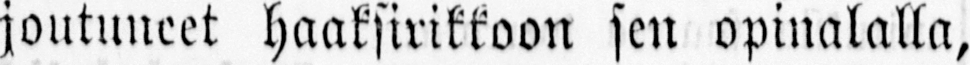joutuneet haaksirikkoon sen opinalalla,
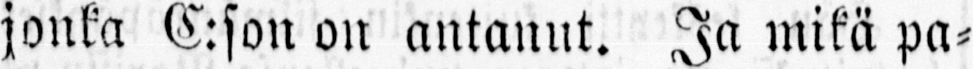jonka C:son on antanut. Ja mikä pa-
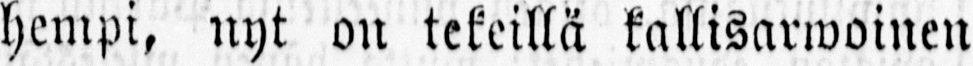hempi, nyt on tekeillä kallisarwoinen
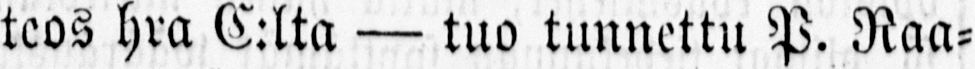teos hra C:lta — tuo tunnettu P. Raa-
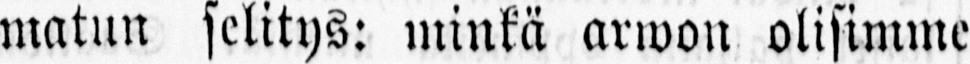matun selitys: minkä arwon olisimme
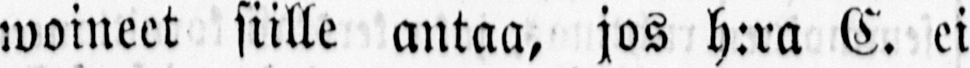woineet siille antaa, jos h:ra C. ei
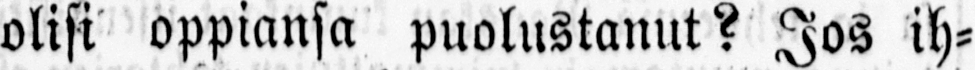olisi oppiansa puolustanut? Jos ih-
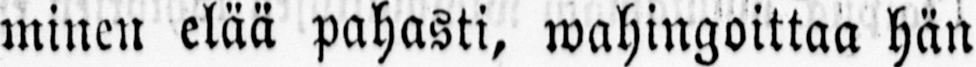minen elää pahasti, wahingoittaa hän
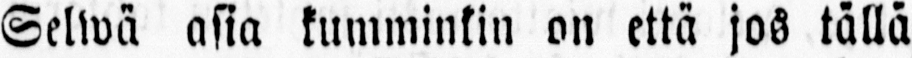Seliwä asia kumminkin on että jos tällä
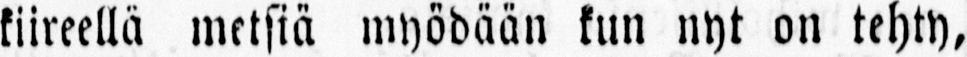kiireellä metsiä myödään kun nyt on tehty,
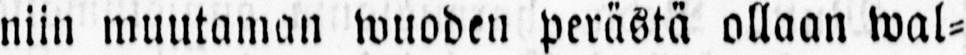niin muutaman wuoden perästä ollaan wal-
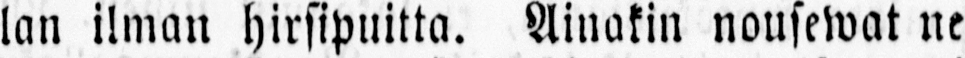lan ilman hirsipuitta. Ainakin nousewat ne
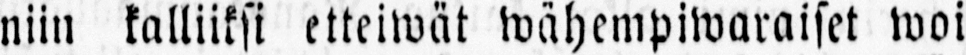niin kalliiksi etteiwät wähempiwaraiset woi
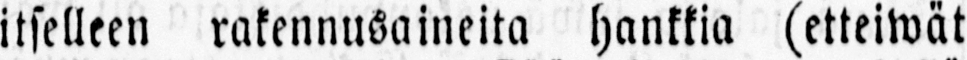itselleen rakennusaineita hankkia (etteiwät
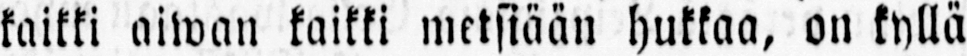kaikki aiwan kaikki metsiään hukkaa, on kyllä
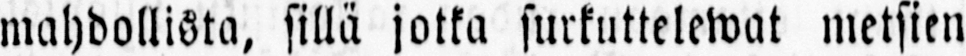mahdollista, sillä jotka surkuttelewat metsien
